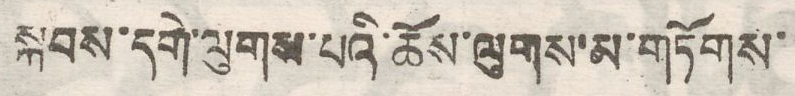སྐབས་དགེ་ལུགས་པའི་ཆོས་ལུགས་མ་གཏོགས་
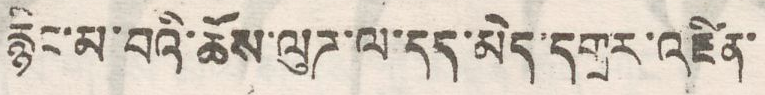རྙིང་མ་བའི་ཆོས་ལུཊ་ལ་དད་མེད་དགྲར་འཛིན་
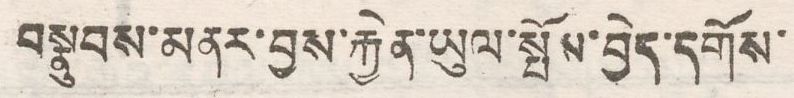བསྣུབས་མནར་བྱས་རྐྱེན་ཡུལ་སྤོས་བྱེད་དགོས་
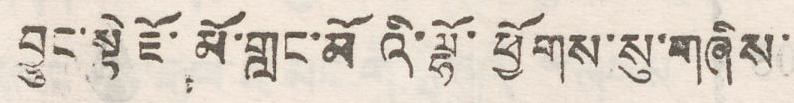བྱུང་སྟེ་ཇོ་མོ་གླང་མོའི་ལྷོ་ཕྱོགས་སུ་གཞིས་
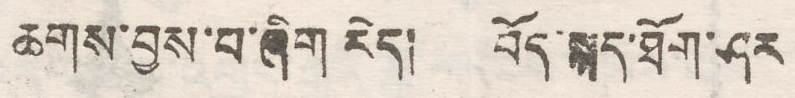ཆགས་བྱས་པ་ཞིག རེད། བོད་སྐད་ཐོག་ཤར
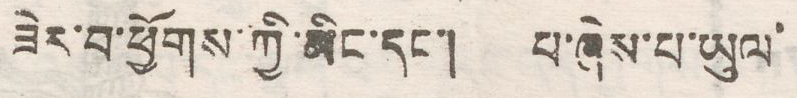ཟེར་བ་ཕྱོགས་ཀྱི་མིང་དང་། པ་ཞེས་པ་ཡུལ་
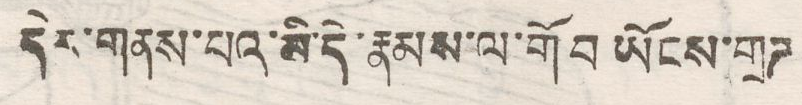དེར་གནས་པའི་མི་དེ་རྣམས་ལ་གོབ ཡོངས་གྲཊ
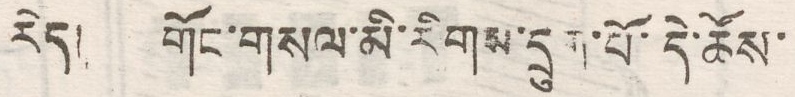རེད།  གོང་གསལ་མི་རིགས་དྲུག་པོ་དེ་ཆོས་
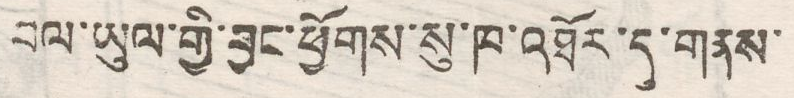བལ་ཡུལ་གྱི་བྱང་ཕྱོགས་སུ་ཁ་འཐོར་དུ་གནས་
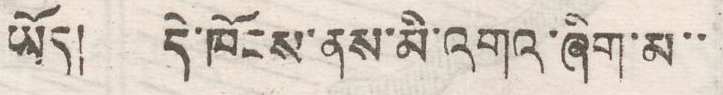ཡོད། དེ་ཁོངས་ནས་མི་འགའ་ཞིག་མ་་
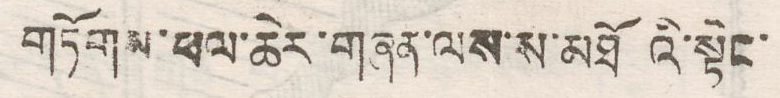གཏོགས་ཕལ་ཆེར་གཞན་ལས་ས་མཐོའི་སྟེང་
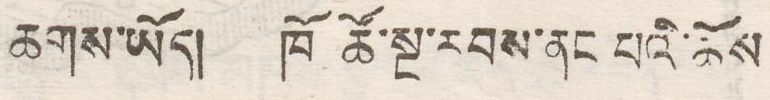ཆགས་ཡོད། ཁོ་ཚོ་སྔ་རབས་ནང པའི་ཆོས
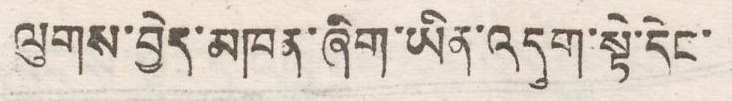ལུགས་བྱེད་མཁན་ཞིག་ཡིན་འདུག་སྟེ་དེང་
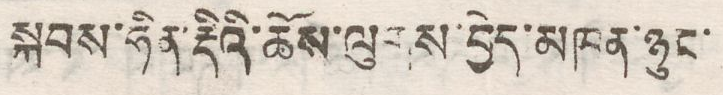སྐབས་ཧིན་རྡིའི་ཆོས་ལུགས་བྱེད་མཁན་ཉུང་
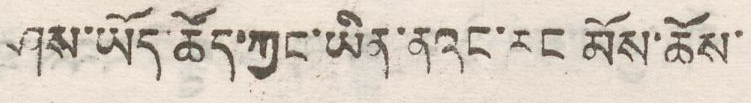ཤས་ཡོད་ཚོད་ཀྱང་ཡིན་ནའང་རང་མོས་ཆོས་
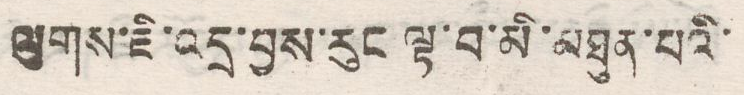ལུགས་ཇི་འདྲ་བྱས་རུང ལྟ་བ་མི་མཐུན་པའི་
